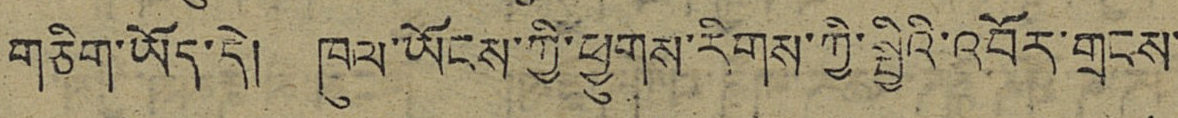གཅིག་ཡོད་དེ། ཁུལ་ཡོངས་ཀྱི་ཕྱུགས་རིགས་ཀྱི་སྤྱིའི་འབོར་གྲངས་
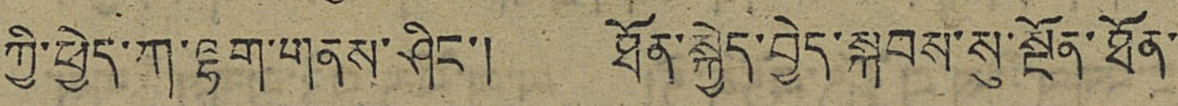ཀྱི་ཕྱེད་ཀ་ལྷག་གནས་ཤིང་། ཐོན་སྐྱེད་བྱེད་སྐབས་སུ་སྔོན་ཐོན་
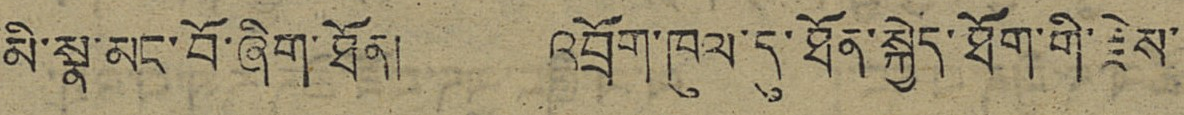མི་སྣ་མང་བོ་ཞིག་ཐོན། འབྲོག་ཁུལ་དུ་ཐོན་སྐྱེད་ཐོག་གི་རྗེས་
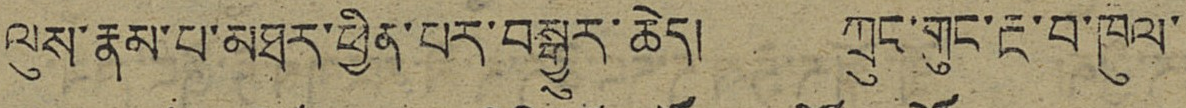ལུས་རྣམ་པ་མཐར་ཕྱིན་པར་བསྒྱུར་ཆེད། ཀྲུང་གུང་རྔ་བ་ཁུལ་
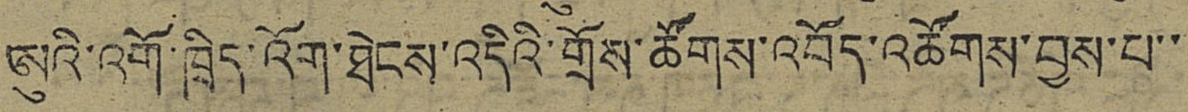ཨུའི་འགོ་ཁྲིད་འོག་ཐེངས་འདིའི་གྲོས་ཚོགས་འབོད་འཚོགས་བྱས་པ་་
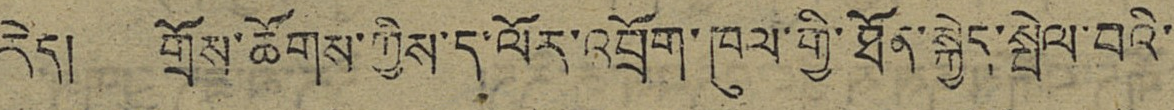རེད། གྲོས་ཚོགས་ཀྱིས་ད་ལོར་འབྲོག་ཁུལ་གྱི་ཐོན་སྐྱེད་སྤེལ་བའི་
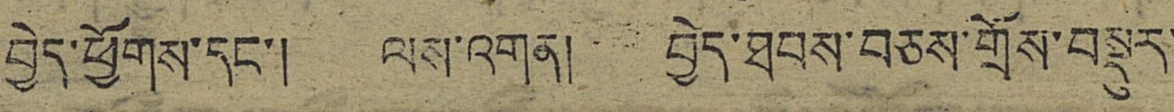བྱེད་ཕྱོགས་དང་། ལས་འགན། བྱེད་ཐབས་བཅས་གྲོས་བསྡུར་
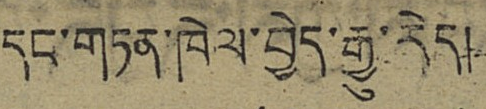དང་གཏན་ཁེལ་བྱེད་རྒྱུ་རེད།
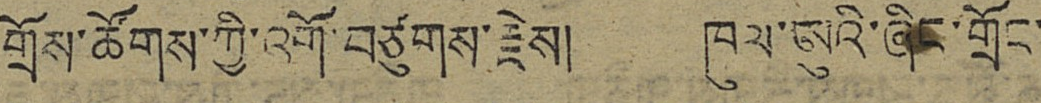གྲོས་ཚོགས་ཀྱི་འགོ་བཙུགས་རྗེས། ཁུལ་ཨུའི་ཞིང་གྲོང་
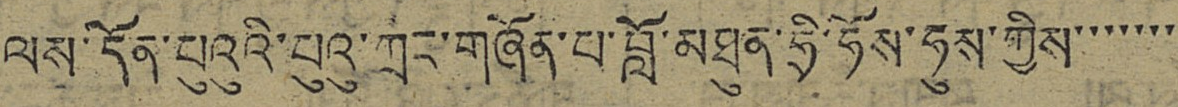ལས་དོན་པུའུའི་པུའུ་ཀྲང་གཞོན་པ་བློ་མཐུན་ཧྲི་ཧོས་ཧུས་ཀྱིས་་་་་་་
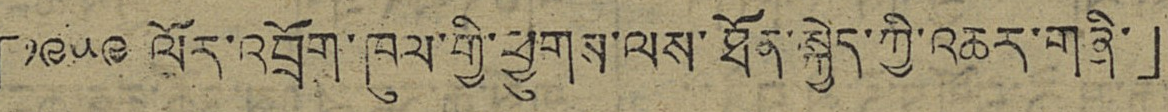「༡༩༥༩ ལོར་འབྲོག་ཁུལ་གྱི་ཕྱུགས་ལས་ཐོན་སྐྱེད་ཀྱི་འཆར་གཞི་」
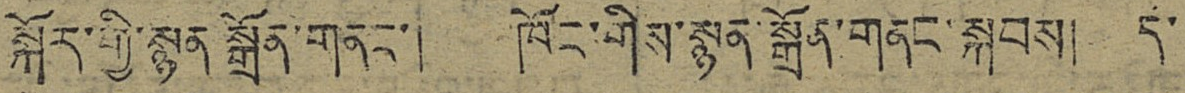སྐོར་གྱི་སྙན་སྒྲོན་གནང་། ཁོང་གིས་སྙན་སྒྲོན་གནང་སྐབས། ད་
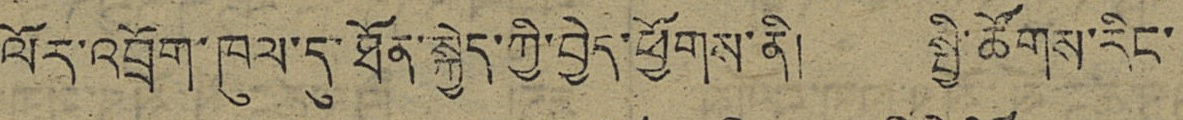ལོར་འབྲོག་ཁུལ་དུ་ཐོན་སྐྱེད་ཀྱི་བྱེད་ཕྱོགས་ནི། སྤྱི་ཚོགས་རིང་
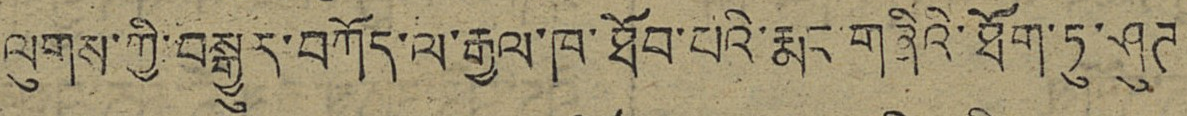ལུགས་ཀྱི་བསྒྱུར་བཀོད་ལ་རྒྱལ་ཁ་ཐོབ་པའི་རྨང གཞིའི་ཐོག་ཏུ་ཤུཊ
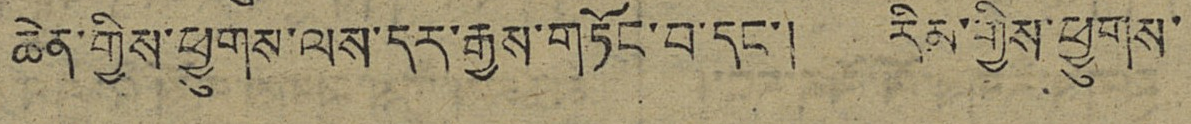ཆེན་གྱིས་ཕྱུགས་ལས་དར་རྒྱས་གཏོང་བ་དང་། རིམ་གྱིས་ཕྱུགས་
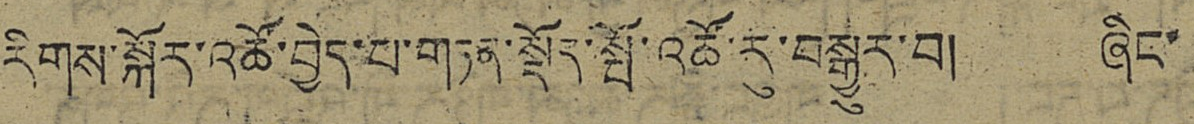རིགས་སྐོར་འཚོ་བྱེད་པ་གཏན་སྡོར་སྤོ་འཚོ་རུ་བསྒྱུར་བ། ཞིང་
